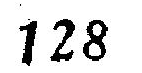128
